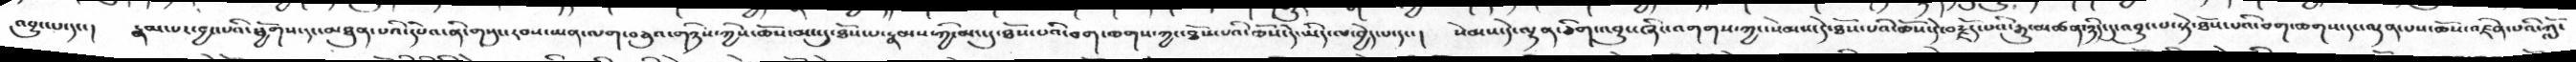འབྱུང་པ་དང་།  རྣམ་པར་བྱང་པའི་ཕྱོགས་དང་མཐུན་པའི་དཔེའ་ནི་གསུང་རབས་ཡན་ལག་བཅུའ་གཉིས་ཀྱིས་ཆོས་མང་དུ་ཐོས་པ་རྣམས་ཀྱི་མང་དུ་ཐོས་པའི་བག་ཆགས་ཀྱང་ཐོས་པའི་ཆོས་དེ་ཡིད་ལ་བྱེད་པ་དང་།  སེམས་དེ་ལྷན་ཅིག་འབྱུང་ཞིང་འགགས་ཀྱང་སེམས་དེ་ཐོས་པའི་ཆོས་དེ་བརྗོད་པའི་རྒྱུ་མཚན་ཉིད་དུ་འབྱུང་པ་སྟེ་ཐོས་པའི་བག་ཆགས་དང་ལྡན་པས་ཆོས་འཛིན་པའི་གློ་
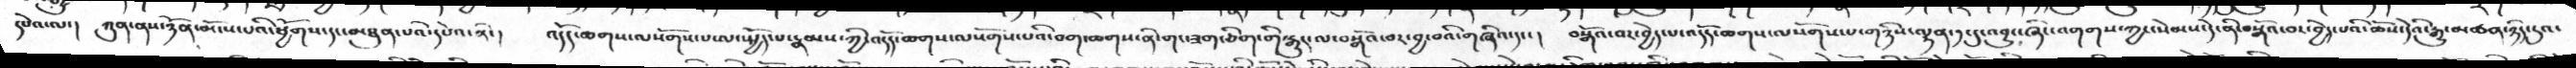དཔེའ་ལ་།  ཀུན་ནས་ཉོན་མོངས་པའི་ཕྱོགས་དང་མཐུན་པའི་དཔེའ་སྟེ་།  འདོད་ཆགས་ལསོགས་པ་ལ་སྤྱོད་པ་རྣམས་ཀྱི་འདོད་ཆགས་ལསོགས་པའི་བག་ཆགས་ནི་གང་ཟག་ཅིག་གི་སྒྱུར་ལ་བསྒོའ་བར་བྱ་བའི་གཞིའ་དང་།  བསྒོའ་བར་བྱེད་པ་འདོད་ཆགས་ལསོགས་པ་གཉིས་ལྷན་༡་དུ་འབྱུང་ཞིང་འགགས་ཀྱང་སེམས་དེ་ནི་བསྒོའ་བར་བྱེད་པའི་ཆོས་དེའི་རྒྱུ་མཚན་ཉིད་དུའ་
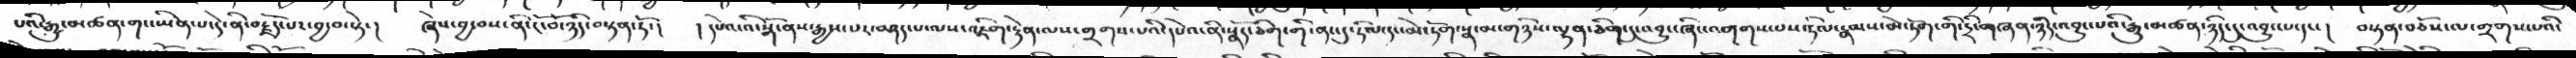པའི་རྒྱུ་མཚན་གང་ཡིན་པ་དེ་ནི་བརྗོད་པར་བྱ་བ་སྟེ་།  ཞེས་བྱ་བས་ནི་ངོ་བོ་ཉིད་བསྟན་ཏོ་།  །དཔེའ་འི་སྒོ་ནས་རྒྱས་པར་བཤད་པ་ལས་འཇིག་རྟེན་ལས་གྲགས་པའི་དཔེའ་ནི་སྣོད་ཅིག་གི་ནང་དུ་ཏིལ་དང་མེ་ཏོག་སྣ་མ་གཉིས་ལྷན་ཅིག་དུ་འབྱུང་ཞིང་འགགས་པས་ཏིལ་རྣམས་མེ་ཏོག་གི་དྲི་གཞན་ཉིད་འབྱུང་པའི་རྒྱུ་མཚན་ཉིད་དུ་འབྱུང་པ་དང་།  བསྟན་བཅོས་ལ་གྲགས་པའི་
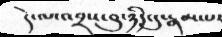དེ་ལ་འབྲས་བུ་ཉིད་དུ་རྣམ་པར
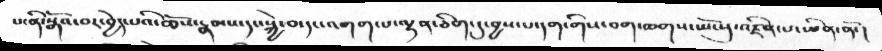པ་ནི་སྒོའ་བར་བྱེད་པའི་ཆོས་རྣམས་དང་སྐྱེ་བ་དང་འགག་པ་ལྷན་ཅིག་དུ་བྱས་པ་དག་གིས་བག་ཆགས་ཡོངསུ་འཛིན་པ་ཡིན་ནོ་།
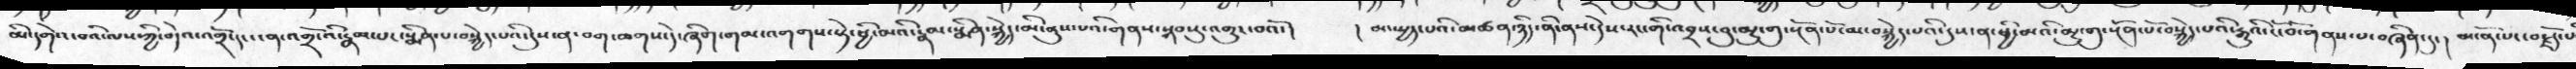མི་དགེའ་བའི་ལས་ཀྱི་བདེའ་འགྲོ་དང་ངན་འགྲོ་འི་རྣམ་པར་སྨིན་པ་བསྐྱེད་པའི་དུས་ན་བག་ཆགས་དེ་ཞིག་གམ་འགགས་སྟེ་ཕྱི་མའི་རྣམ་སྨིན་སྐྱེད་མི་ནུས་པའི་གནས་སྐབསུ་འགྱུར་བའོ་།   །མ་སྤྱད་པའི་མཚན་ཉིད་ནི་ནས་དེས་རང་གི་འབྲས་བུ་མྱུ་གུ་སྔོན་པོ་མ་བསྐྱེད་པའི་དུས་ན་ཕྱི་མའི་མྱུ་གུ་སྔོན་པོ་བསྐྱེད་པའི་རྒྱུའི་ངོ་བོ་གནས་པ་བཞིན་དུ་།  མངོན་པར་བརྗོད་པ
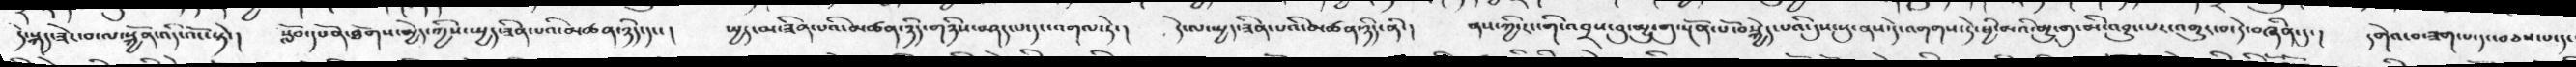དེ་སྐད་ཟེར་བ་ལ་སྐྱོན་འདི་འོང་སྟེ་།  སློབ་དཔོན་ཐོགས་མྱེད་ཀྱིས་སྤྱད་ཟིན་པའི་མཚན་ཉིད་དང་།  སྤྱད་མ་ཟིན་པའི་མཚན་ཉིད་གཉིས་བཤད་པ་དང་འགལ་ཏེ་།  དེ་ལ་སྤྱད་ཟིན་པའི་མཚན་ཉིད་ནི་།  ནས་ཀྱི་རང་གི་འབྲས་བུ་མྱུ་གུ་སྔོན་པོ་བསྐྱེད་པའི་དུས་སུ་ནས་དེ་འགགས་ཏེ་ཕྱི་མའི་མྱུ་གུ་མི་འབྱུང་པར་འགྱུར་བ་དེ་བཞིན་དུ་།  དགེའ་བ་ཟག་པ་དང་བཅས་པ་དང
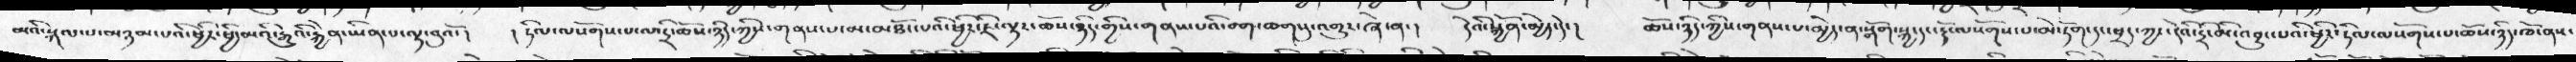མའི་སྐལ་པ་མཉམ་པའི་ཕྱིར་ཕྱི་མའི་རྒྱུའི་རྐྱེན་ཡིན་པ་ལྟ་བུའོ་།  །ཏིལ་ལསོགས་པ་ལ་དྲི་ཆོས་ཉིད་ཀྱིས་གནས་པ་མ་མཐོང་པའི་ཕྱིར་ཇི་ལྟར་ཆོས་ཉིད་གྱིས་གནས་པའི་བག་ཆགསུ་འགྱུར་ཞེ་ན་།   དེའི་སྐྱོན་མྱེད་དེ་།   ཆོས་ཉིད་ཀྱིས་གནས་པ་མྱེད་ན་སྒོག་སྐྱ་དང་རྡོ་ལསོགས་པ་མེ་ཏོག་དང་ཕྲད་ཀྱང་དེའི་དྲི་མི་འབྱུང་པའི་ཕྱིར་ཏིལ་ལསོགས་པ་ཆོས་ཉིད་ཁོ་ནས་
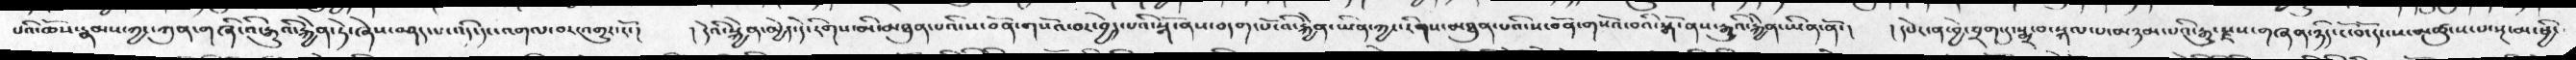པའི་ཆོས་རྣམས་ཀྱང་ཀུན་གཞི་འི་རྒྱུའི་རྐྱེན་ཏེ་ཞེས་བཤད་པ་འདི་དང་འགལ་བར་འགྱུར་རོ་།   ། དེའི་སྐྱེན་མྱེད་དེ་རིགས་མི་མཐུན་པའི་ས་བོན་གསོའ་བར་བྱེད་པའི་སྒོ་ནས་བདག་པོ་འི་རྐྱེན་ཡིན་ཀྱང་རིགས་མཐུན་པའི་ས་བོན་གསོའ་བའི་སྒོ་ནས་རྒྱུའི་རྐྱེན་ཡིན་ནོ་།  །དཔེར་ན་བྱེ་བྲག་དུ་སྨྲ་བ་སྐལ་པ་མཉམ་པའི་རྒྱུ་རྫས་གཞན་ཉིད་ངོ་བོ་དང་ས་མཚུངས་པ་སྔ་མ་ཕྱི་
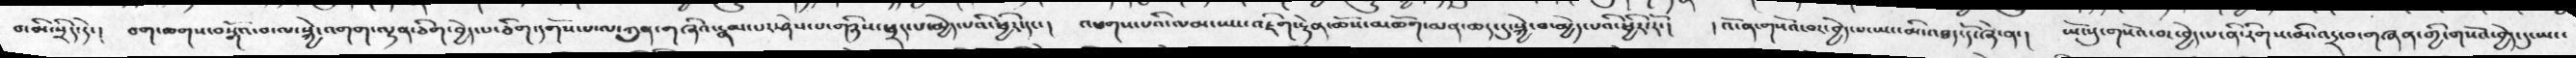བ་མི་སྲིད་དེ་།  བག་ཆགས་བསྒོའ་བ་ལ་སྐྱེ་འགག་ལྷན་ཅིག་བྱེད་པ་ཅིག་དགོས་པ་ལ་ཀུན་གཞིའ་རྣམ་པར་ཤེས་པ་གཉིས་ཕྲད་པ་མྱེད་པའི་ཕྱིར་དང་།   འཕགས་པའི་ལམ་ཡང་འཇིག་རྟེན་ཆོས་མཆོག་མན་ཆད་དུ་སྐྱེ་བ་མྱེད་པའི་ཕྱིར་རོ་།   །འོ་ན་གསོའ་བར་བྱེད་པ་ཡང་མི་འཐད་དོ་ཞེ་ན་།  ཡོངསུ་གསོའ་བར་བྱེད་པ་ནི་རིགས་མི་འདྲ་བ་གཞན་གྱི་གསོའ་བྱེད་དུ་ཡང་
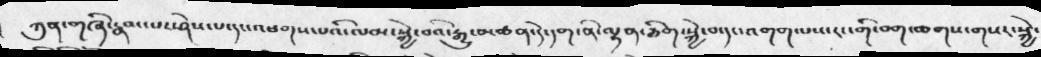ཀུན་གཞི་རྣམ་པར་ཤེས་པ་དང་འཕགས་པའི་ལམ་སྐྱེ་བའི་རྒྱུ་མཚན་དེ་དག་ནི་ལྷན་ཅིག་སྐྱེ་བ་དང་འགག་པས་རང་གི་བག་ཆགས་གསར་སྐྱེ་
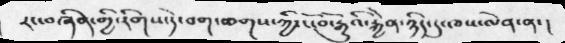རང་བཞིན་གྱི་རིགས་དེ་བག་ཆགས་ཀྱི་ངོ་བོ་རྒྱུའི་རྐྱེན་ཉིད་དུ་ཁས་ལེན་ན་།
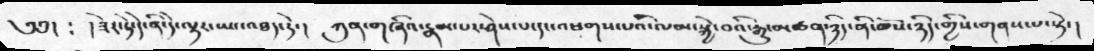༄༅། ༴  །ཟེར་ཏེ་དེ་ནི་དེ་ལྟར་ཡང་འཐད་དེ་།  ཀུན་གཞིའ་རྣམ་པར་ཤེས་པ་དང་འཕགས་པའི་ལམ་སྐྱེ་བའི་རྒྱུ་མཚན་ཉིད་ནི་ཆོས་ཉིད་གྱིས་གནས་པ་སྟེ་།
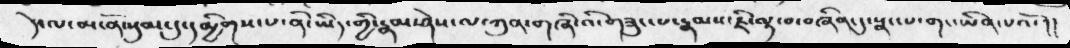དེ་ལ་མངོན་སུམ་དུ་དམྱིགས་པ་ནི་ཡིད་གྱི་རྣམ་ཤེས་ལ་ཀུན་གཞི་འི་གཟུང་པ་རྣམས་ཇི་ལྟ་བ་བཞིན་དུ་སྣང་པ་གང་ཡིན་པའོ་། །
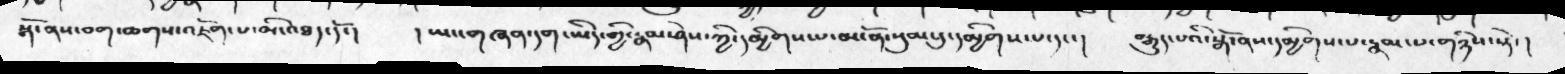སྒོ་ནས་བག་ཆགས་འཇོག་པ་མི་འཐད་དོ་།   །ཡང་གཞན་དག་ཡིད་གྱི་རྣམ་ཤེས་ཀྱི་དམྱིགས་པ་མངོན་སུམ་དུ་དམྱིགས་པ་དང་།   བརྒྱུད་པའི་སྒོ་ནས་དམྱིགས་པ་རྣམ་པ་གཉིས་སྟེ་།
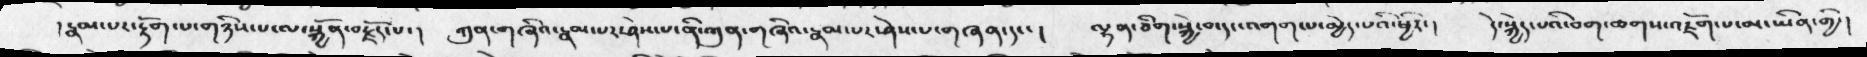།རྣམ་པར་རྟོག་པ་གཉིས་པ་ལ་སྐྱོན་བརྗོད་པ་།  ཀུན་གཞིའ་རྣམ་པར་ཤེས་པ་ནི་ཀུན་གཞིའ་རྣམ་པར་ཤེས་པ་གཞན་དང་།   ལྷན་ཅིག་སྐྱེ་བ་དང་འགག་པ་མྱེད་པའི་ཕྱིརོ་།   དེ་སྐྱེད་པའི་བག་ཆགས་འཇོག་པ་མ་ཡིན་གྱི་།
